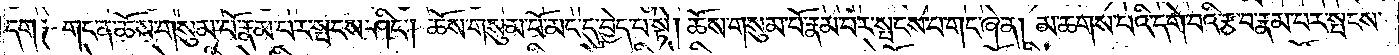དག༑ གང་ན་ཆོས་གསུམ་པོ་རྣམ་པར་སྤངས་ཤིང༌། ཆོས་གསུམ་པོ་མང་དུ་བྱེད་པ་སྟེ། ཆོས་གསུམ་པོ་རྣམ་པར་སྤངས་པ་གང་ཞེ་ན། མ་ཆགས་པའི་དགེ་བའི་རྩ་བ་རྣམ་པར་སྤངས་
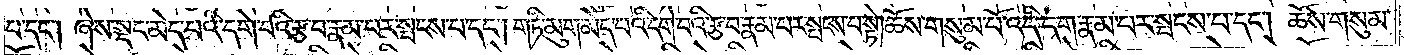པ་དང༌། ཞེས་སྡང་མེད་པའི་དགེ་བའི་རྩ་བ་རྣམ་པར་སྤངས་པ་དང༌། གཏི་མུག་མེད་པའི་དགེ་བའི་རྩ་བ་རྣམ་པར་སྤངས་པ་སྟེ། ཆོས་གསུམ་པོ་འདི་དག་རྣམ་པར་སྤངས་པ་དང༌། ཆོས་གསུམ་
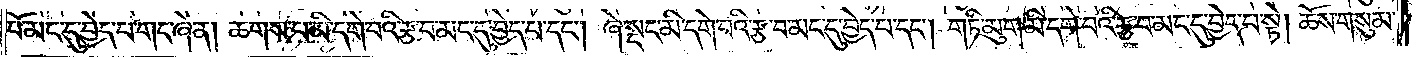པོ་མང་དུ་བྱེད་པ་གང་ཞེ་ན། ཆགས་པ་མི་དགེ་བའི་རྩ་བ་མང་དུ་བྱེད་པ་དང༌། ཞེ་སྡང་མི་དགེ་བའི་རྩ་བ་མང་དུ་བྱེད་པ་དང༌། གཏི་མུག་མི་དགེ་བའི་རྩ་བ་མང་དུ་བྱེད་པ་སྟེ། ཆོས་གསུམ་
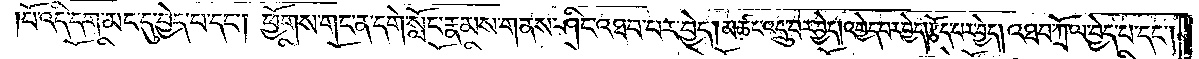པོ་འདི་དག་མང་དུ་བྱེད་པ་དང༌། ཕྱོགས་གང་ན་དགེ་སློང་རྣམས་གནས་ཤིང་འཐབ་པར་བྱེད། མཚང་འདྲུ་བར་བྱེད། འགྱེད་པར་བྱེད། རྩོད་པར་བྱེད། འཐབ་ཀྲོལ་བྱེད་པ་དང༌།
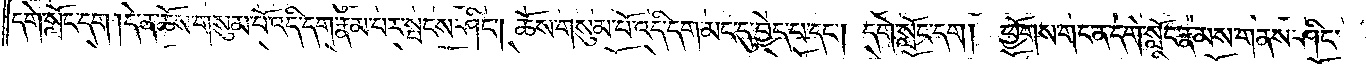དགེ་སློང་དག །དེ་ན་ཆོས་གསུམ་པོ་འདི་དག་རྣམ་པར་སྤངས་ཤིང༌། ཆོས་གསུམ་པོ་འདི་དག་མང་དུ་བྱེད་པ་དང༌། དགེ་སློང་དག། ཕྱོགས་གང་ན་དགེ་སློང་རྣམས་གནས་ཤིང་
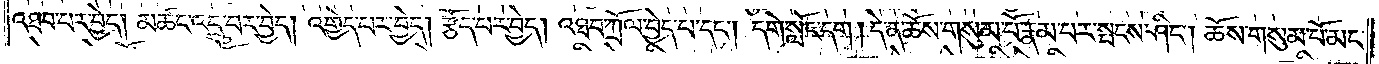འཐབ་པར་བྱེད། མཚང་འདྲུ་བར་བྱེད། འགྱེད་པར་བྱེད། རྩོད་པར་བྱེད། འཐབ་ཀྲོལ་བྱེད་པ་དང༌། དགེ་སློང་དག །དེ་ན་ཆོས་གསུམ་པོ་རྣམ་པར་སྤངས་ཤིང༌། ཆོས་གསུམ་པོ་མང་
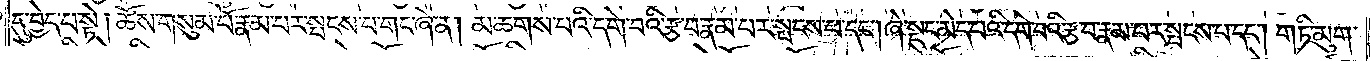དུ་བྱེད་པ་སྟེ། ཆོས་གསུམ་པོ་རྣམ་པར་སྤངས་པ་གང་ཞེ་ན། མ་ཆགས་པའི་དགེ་བའི་རྩ་བ་རྣམ་པར་སྤངས་པ་དང༌། ཞེ་སྡང་མེད་པའི་དགེ་བའི་རྩ་བ་རྣམ་པར་སྤངས་པ་དང༌། གཏི་མུག་
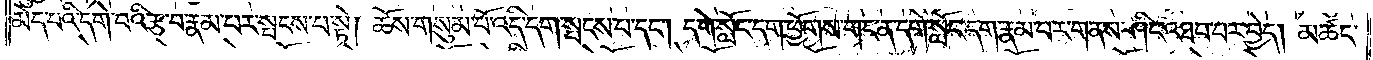མེད་པའི་དགེ་བའི་རྩ་བ་རྣམ་པར་སྤངས་པ་སྟེ། ཆོས་གསུམ་པོ་འདི་དག་སྤངས་པ་དང༌། དགེ་སློང་དག་ཕྱོགས་གང་ན་དགེ་སློང་དག་རྣམ་པར་གནས་ཤིང་འཐབ་པར་བྱེད། མཚང་
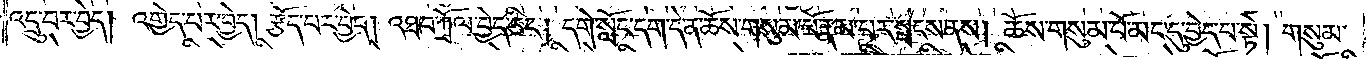འདྲུ་བར་བྱེད། འགྱེད་པར་བྱེད། རྩོད་པར་བྱེད། འཐབ་ཀྲོལ་བྱེད་ཅིང༌། དགེ་སློང་དག་དེ་ན་ཆོས་གསུམ་པོ་རྣམ་པར་སྤངས་ནས། ཆོས་གསུམ་པོ་མང་དུ་བྱེད་པ་སྟེ། གསུམ་
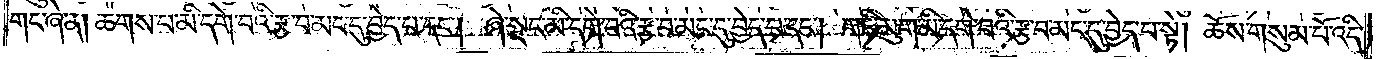གང་ཞེ་ན། ཆགས་པ་མི་དགེ་བའི་རྩ་བ་མང་དུ་བྱེད་པ་དང༌། ཞེ་སྡང་མི་དགེ་བའི་རྩ་བ་མང་དུ་བྱེད་པ་དང༌། གཏི་མུག་མི་དགེ་བའི་རྩ་བ་མང་དུ་བྱེད་པ་སྟེ། ཆོས་གསུམ་པོ་འདི་
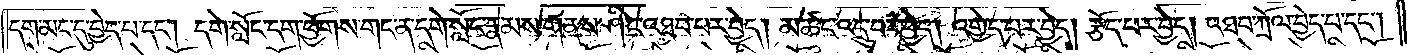དག་མང་དུ་བྱེད་པ་དང༌། དགེ་སློང་དག་ཕྱོགས་གང་ན་དགེ་སློང་རྣམས་གནས་ཤིང་འཐབ་པར་བྱེད། མཚང་འདྲུ་བར་བྱེད། འགྱེད་པར་བྱེད། རྩོད་པར་བྱེད། འཐབ་ཀྲོལ་བྱེད་པ་དང༌།
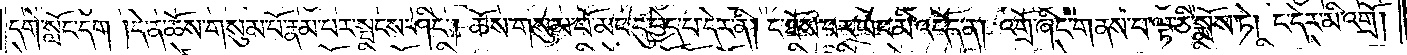དགེ་སློང་དག །དེ་ན་ཆོས་གསུམ་པོ་རྣམ་པར་སྤངས་ཤིང༌། ཆོས་གསུམ་པོ་མང་དུ་བྱེད་པ་དེར་ནི། ང་ཐོས་པར་ཡང་མི་འདོད་ན། འགྲོ་ཞིང་གནས་པ་ལྟ་ཅི་སྨོས་ཏེ། ང་དེར་མི་འགྲོ།
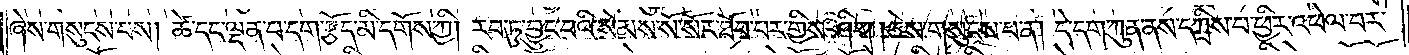ཞེས་གསུངས་པས། ཚེ་དང་ལྡན་པ་དག་རྩོད་མི་དགོས་ཀྱི། རབ་ཏུ་བྱུང་བའི་སེམས་སོ་སོར་ཐོབ་པར་གྱིས་ཤིག །ཅེས་གསུངས་པ་ན། དེ་དག་ཀུན་ནས་དཀྲིས་པ་ཕྱིར་འཕེལ་བར་
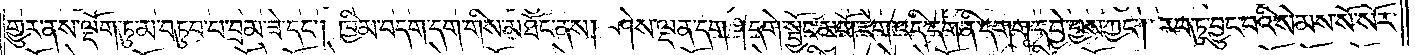གྱུར་ནས་ལྡོག་ཏུ་མ་བཏུབ་པ་བྲམ་ཟེ་དང༌། ཁྱིམ་བདག་དག་གིས་མཐོང་ནས། ཤེས་ལྡན་དག །དགེ་སྦྱོང་མགོ་རེག་འདི་དག་ནི་དགག་དབྱེ་བྱས་ཀྱང༌། རབ་ཏུ་བྱུང་བའི་སེམས་སོ་སོར་
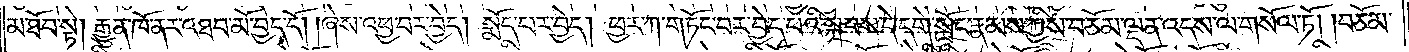མ་ཐོབ་སྟེ། རྒྱུན་ཁོ་ནར་འཐབ་མོ་བྱེད་དོ། །ཞེས་འཕྱ་བར་བྱེད། སྨོད་པར་བྱེད། ཕྱར་ཀ་གཏོང་བར་བྱེད་པའི་སྐབས་དེ་དགེ་སློང་རྣམས་ཀྱིས་བཅོམ་ལྡན་འདས་ལ་གསོལ་ཏོ། །བཅོམ་
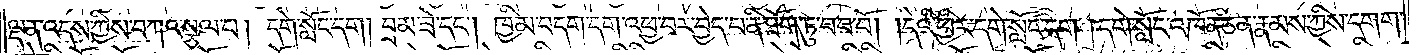ལྡན་འདས་ཀྱིས་བཀའ་སྩལ་པ། དགེ་སློང་དག། བྲམ་ཟེ་དང༌། ཁྱིམ་བདག་དག་འཕྱ་བར་བྱེད་པ་ནི་ཐོག་ཏུ་བབ་བོ། །དེའི་ཕྱིར་དགེ་སློང་དག །དགེ་སློང་འཁོན་ཅན་རྣམས་ཀྱིས་དགག་
